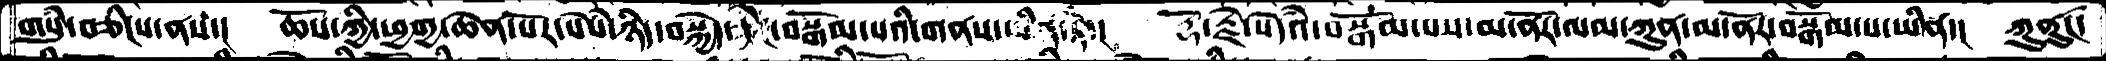གསུཾ་བཅིངས་ནས་།  ཆོས་ཀྱི་ཕྱགྱ་ཆེན་པོར་སེཾས་ཉིད་བསྐྱེད་ཅིང་བསྒོམ་པའི་གནས་ཡིན་ཏེ་།  རྡོ་རྗེ་སེདཾའ་བསྒོམ་པས་མ་ནོར་ལམ་ཀུན་མ་ནོར་བསྒོམ་པ་ཡིན་།  ཀུནུང་
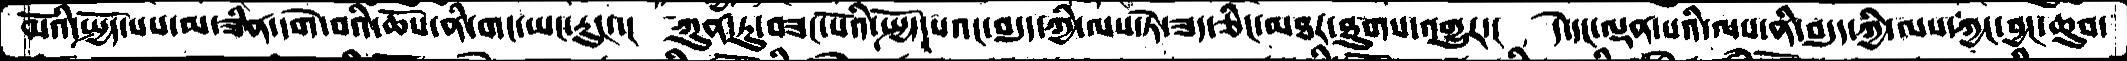མོའི་སྤྱོད་པས་མ་ཟིན་དགེ་བའི་ཆོས་ནི་གང་ཡང་རུང་་།  ཀུན་ཏུ་བཟང་པོའི་སྤྱོད་པའང་བདུད་ཀྱི་ལས་ཏེ་ཟད་ཅིང་མཐར་ཐུགས་འགྱུར་།  དེ་དང་ལྡན་པའི་ལས་ནི་བདུད་ཀྱི་ལས་ཀྱང་བྱང་ཆུབ་
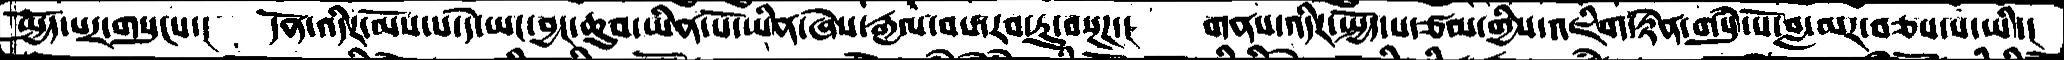སྤྱོད་པར་གསུངས་།  དོན་འདིར་མོས་པ་དེ་ཡང་བྱང་ཆུབ་ཡིན་པོ་ཡིན་ཞེས་རྒྱལ་བས་རབ་ཏུ་བསྔཌ་།  གནས་འདིར་སྤྱོད་པ་ཙམ་གྱིས་འཇིག་རྟེན་གསུཾ་པོ་བླ་མར་བཅས་པ་ཡི་།
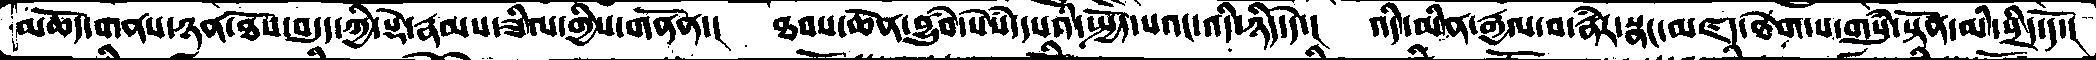མཆོད་གནས་ཉན་ཐོས་བདུད་ཀྱི་སྡེ་རྣམས་ཟིལ་གྱིས་གནོན་།  ཐབས་ཆེན་བྱུཾབ་སེཾས་དཔའི་སྤྱོད་པའང་འདི་ཉིད་དེ་།  འདི་མིན་རྒྱལ་བ་རྣཾར་སྣང་མཛད་ཐེག་པ་གསུཾ་སྟོན་མི་སྲིད་དོ་།
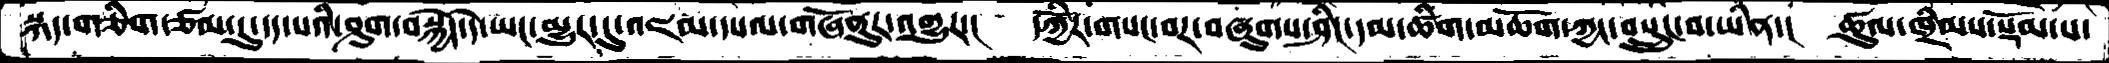སྐད་གཅིག་ཙམ་དུ་དད་པའི་ཤུག་བསྐྱེད་དེ་ཡང་མྱུར་དུ་འཇམ་དཔལ་གཞོནུར་འགྱུར་།  དཀྱོིར་གསང་བར་བཞུགས་ཤིང་དམ་ཚིག་མཆོག་ཀྱང་བསྲུང་བ་ཡིན་།  ཚུལ་ཁྲིམས་སྡོམ་པ་
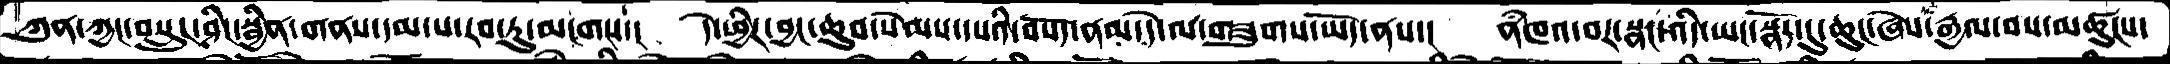ཀུན་ཀྱང་བསྲུང་ཤིང་སྦྱིན་གནས་དམ་པ་རབ་ཏུ་མངགས་།  དེ་ཕྱིར་བྱང་ཆུབ་སེམས་དཔའི་བསོད་ནམ་དེ་ལ་གཟུགས་ཡོད་ནས་།  ནཾཁའ་བར་སྣང་འདི་ཡང་སྣོད་དུ་ཆུང་ཞེས་རྒྱལ་བས་མཚུངས་
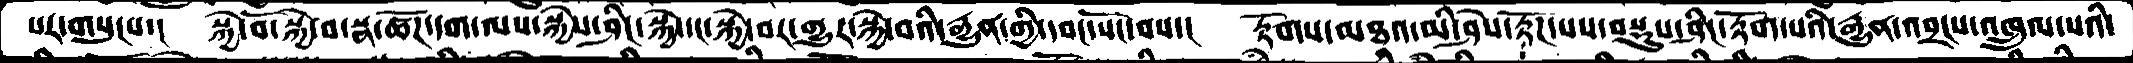པར་གསུངས་།  སྐྱེ་བོ་སྐྱེ་བ་སྣ་ཚོཌ་དག་ལས་སྐྱེས་ཤིང་སྐྱེ་དང་སྐྱེ་བར་གྱུར་སྐྱེ་བའི་རྒྱུན་གྱི་དབང་སོང་བས་།  རྟོགས་མཐའ་མི་ཤེས་རྟོཌ་པས་བསྡུས་ཤིང་རྟོག་པའི་རྒྱུན་འབྲངས་འཁྲུལ་པའི་
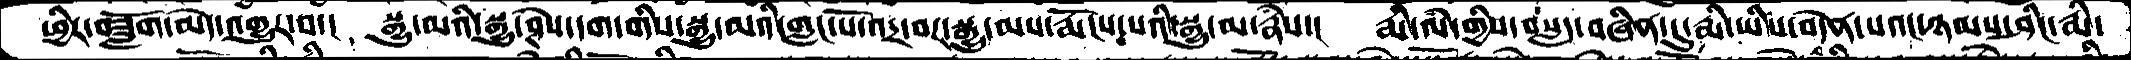ཕྱིར་བཟློག་མེད་འགྱུར་བ་།  སྒྱུ་མའི་སྒྱུ་ཤེས་དག་གིས་སྒྱུ་མའི་གླང་པོ་འདྲ་བར་སྒྱུ་མས་རྨོངས་པའི་སྒྱུ་མ་རྣཾས་།  རྨི་ལཾ་གྱིས་བསླད་བཞིན་དུ་རྨི་ཡིས་བདེན་པའང་ཉམས་ཤིང་རྨི་
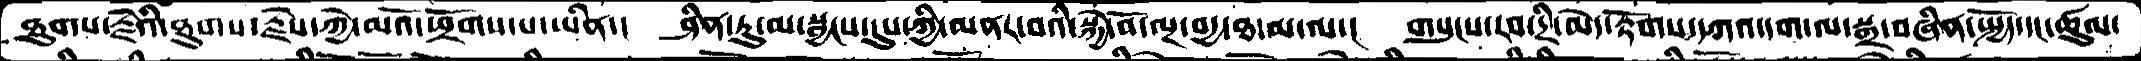ཐུགས་རྗེའི་ཐུགས་རྗེས་ཀྱེ་མའོ་ཕྲོགས་པ་ཡིན་།  ཤིན་ཏུ་མ་སྦྱངས་དུས་ཀྱི་མནར་བའི་སྐྱེ་བོ་ལྔ་བདྱ་ཐ་མ་ལ་།  གསུངས་རབ་དྲི་མེད་རྟོགས་དཀའ་དག་ལ་སྒྲ་བཞིན་སྤྱོད་དང་ཚུལ་
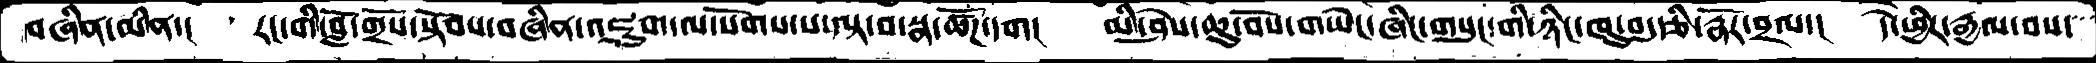བཞིན་མིན་།  རང་གི་བློ་གྲོས་སྟོབས་བཞིན་འཇུག་ལ་སོགས་པ་ལྟ་བ་སྣ་ཚོཌ་དག།  མི་ཤེས་ཆུ་བོས་གཡེང་ཞིང་གསུང་གི་ཉིང་ཁུ་བདུརྩི་རྣོར་བྲལ་།  དེ་ཕྱིར་རྒྱལ་བས་
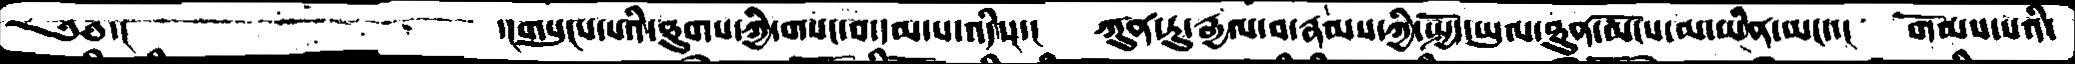༄༅་།།     ་།གསུངས་པའི་ཐུགས་ཀྱི་གསང་བ་དམ་པ་འདིས་།  ཀུན་ཏུ་རྒྱལ་བ་རྣམས་ཀྱི་སྤྱོད་ཡུལ་ཐུན་མོངས་མ་ཡིན་ཡང་་།  གོམས་པའི་
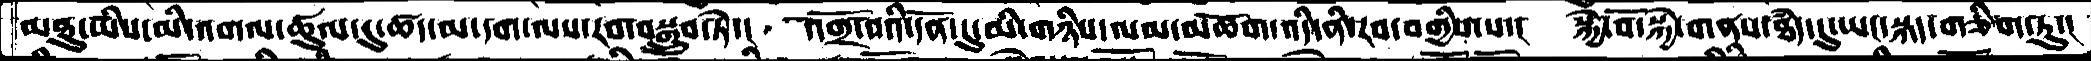མཐུ་ཡིས་མི་འགལ་ཚུལ་དུ་ཚད་མ་དག་ལས་རབ་བསྒྲུབ་ཏེ་།  འགྲོ་བའི་དོན་དུ་མི་གཉིས་ལམ་མཆོག་འདི་ནི་རབ་བགྱིས་པ་།  སྐྱེ་བོ་སྐྱེ་གནས་ཐདཾ་དུ་ཡང་སྐད་གཅིག་ཏུ་།
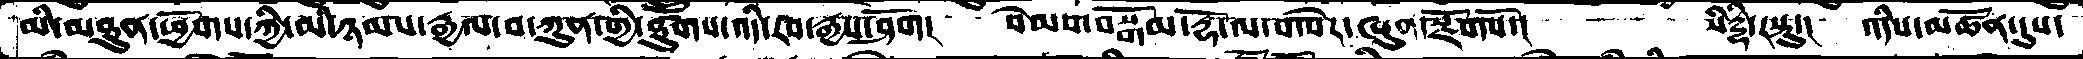མི་མཐུན་ཕྱོགས་ཀྱི་མི་ཉམས་རྒྱལ་བ་ཀུན་གྱི་ཐུགས་འདི་རབ་རྒྱས་ཤོག།  སེམས་བསྒོམ་རྡོ་ལ་གསེེར་ཞུན་སྫོགསོ་།   སིདྡྷི་རསྟུ་།  འདིས་མཚོན་དུས་
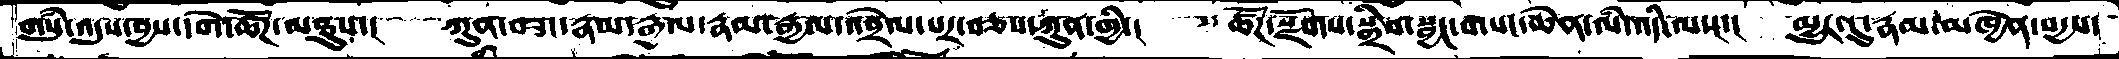གསུཾ་འདུས་བྱས་དགེ་ཚོགས་མཐུས་།  ཀུན་བཟང་རྣམ་རྒྱལ་རྣམ་རྒྱལ་འབྲེལ་པར་བཅས་ཀུན་གྱི་།  ཚོཌ་སྫོགས་སྒྲིབ་སྦྱང་གསང་ཆེན་ལཾ་འདི་ལས་།  མྱུར་དུ་རྣམ་མཁྱེན་སདྱས་
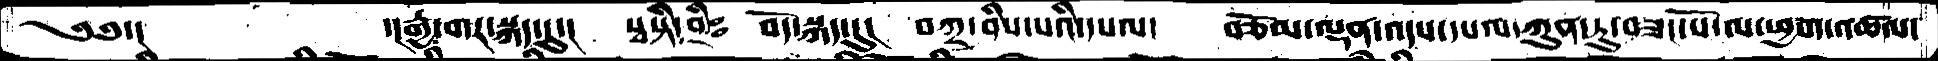༄༅་།   ད། རྒྱ་གར་སྐད་དུ་།  སྭསྟི་ཤྲིཿ  བོད་སྐད་དུ་།  བཀྲ་ཤིས་པའི་དཔལ་  བཅོམ་ལྡན་འདས་དཔལ་ཀུན་ཏུ་བཟང་པོ་ལ་ཕྱག་འཚལ་
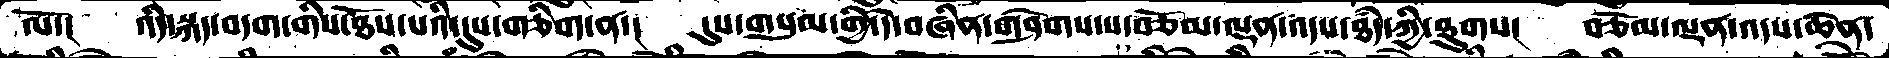ལོ་།   འདི་སྐད་བདག་གིས་ཐོས་པའི་དུས་གཅིག་ན་།    དུས་གསུམ་གྱི་དེ་བཞིན་གཤེགས་པ་བཅོམ་ལྡན་འདས་ཐཾད་ཀྱི་ཐུགས།   བཅོམ་ལྡན་འདས་ཆེན་
